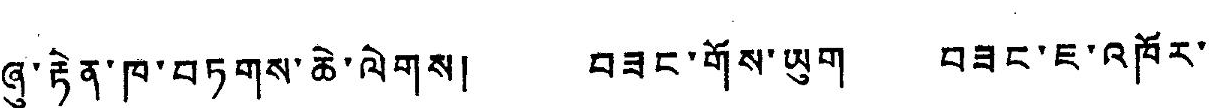ཞུ་རྟེན་ཁ་བཏགས་ཆེ་ལེགས། བཟང་གོས་ཡུག བཟང་ཇ་འཁོར་
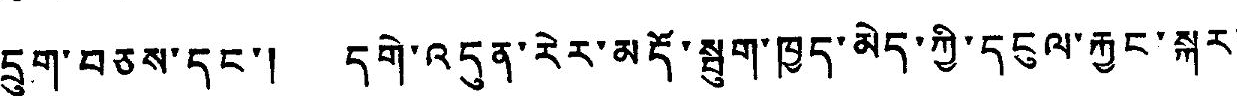དྲུག་བཅས་དང་། དགེ་འདུན་རེར་མདོ་སྦུག་ཁྱད་མེད་ཀྱི་དངུལ་རྐྱང་སྐར་
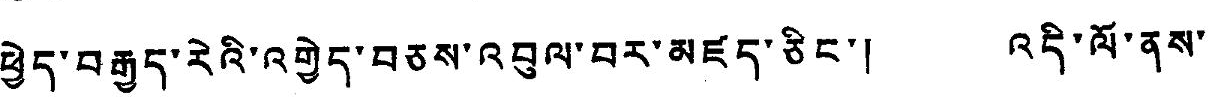ཕྱེད་བརྒྱད་རེའི་འགྱེད་བཅས་འབུལ་བར་མཛད་ཅིང་། འདི་ལོ་ནས་
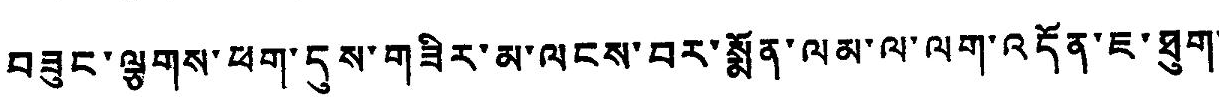བཟུང་ལྕགས་ཕག་དུས་གཟིར་མ་ལངས་བར་སྨོན་ལམ་ལ་ལག་འདོན་ཇ་ཐུག་
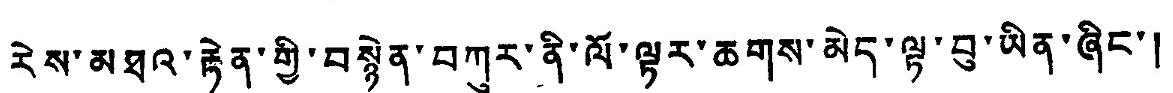རེས་མཐའ་རྟེན་གྱི་བསྙེན་བཀུར་ནི་ལོ་ལྟར་ཆགས་མེད་ལྟ་བུ་ཡིན་ཞིང་།
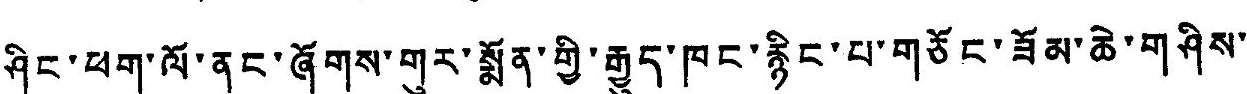ཤིང་ཕག་ལོ་ནང་ཞོགས་གུར་སྨོན་གྱི་རྒྱུད་ཁང་རྙིང་པ་གཅོང་ཟོམ་ཆེ་གཤིས་
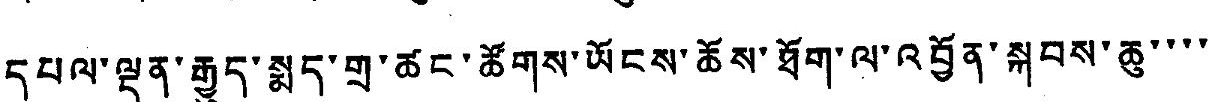དཔལ་ལྡན་རྒྱུད་སྨད་གྲ་ཚང་ཚོགས་ཡོངས་ཆོས་ཐོག་ལ་འབྱོན་སྐབས་ཆུ་་་་
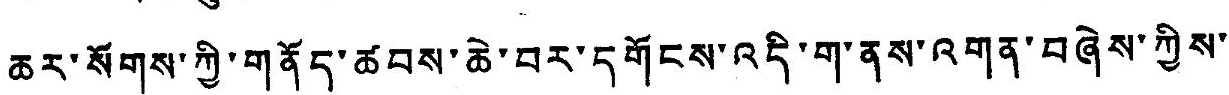ཆར་སོགས་ཀྱི་གནོད་ཚབས་ཆེ་བར་དགོངས་འདི་ག་ནས་འགན་བཞེས་ཀྱིས་
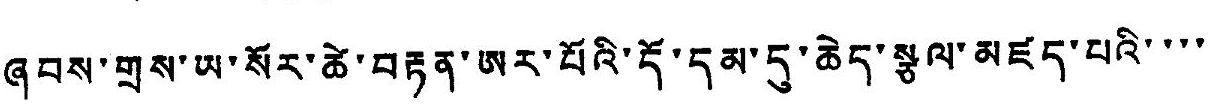ཞབས་གྲས་ཡ་སོར་ཚེ་བརྟན་ཨར་པོའི་དོ་དམ་དུ་ཆེད་སྩལ་མཛད་པའི་་་་
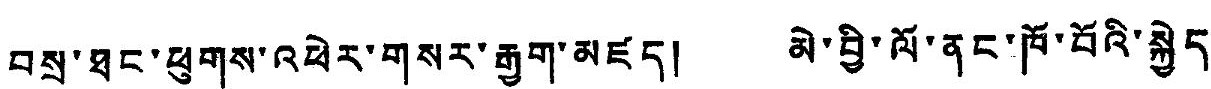བསྲ་ཐང་ཕུགས་འཕེར་གསར་རྒྱག་མཛད། མེ་བྱི་ལོ་ནང་ཁོ་བོའི་སྐྱེད་
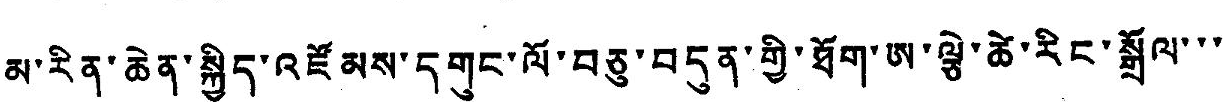མ་རིན་ཆེན་སྐྱིད་འཛོམས་དགུང་ལོ་བཅུ་བདུན་གྱི་ཐོག་ཨ་ལྕེ་ཚེ་རིང་སྒྲོལ་་་
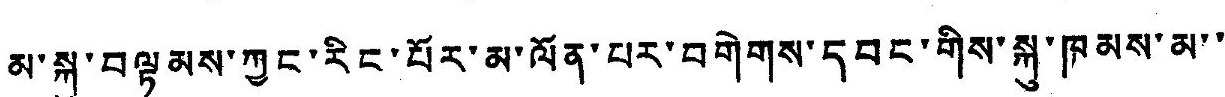མ་སྐུ་བལྟམས་ཀྱང་རིང་པོར་མ་ལོན་པར་བགེགས་དབང་གིས་སྐུ་ཁམས་མ་་
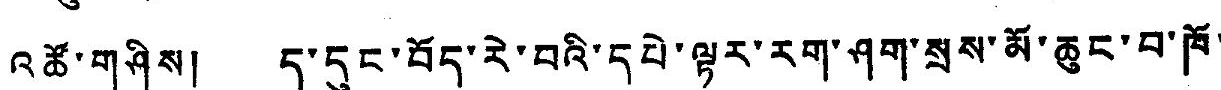འཚོ་གཤིས། ད་དུང་བོད་རེ་བའི་དཔེ་ལྟར་རག་ཤག་སྲས་མོ་ཆུང་བ་ཁོ་
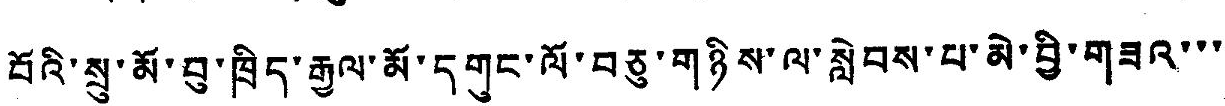བོའི་སྲུ་མོ་བུ་ཁྲིད་རྒྱལ་མོ་དགུང་ལོ་བཅུ་གཉིས་ལ་སླེབས་པ་མེ་བྱི་གཟའ་་་
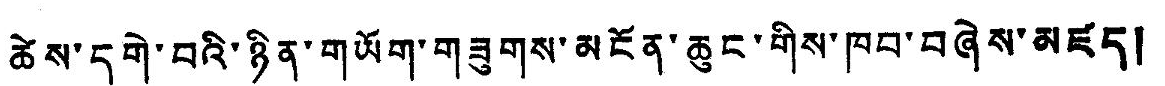ཚེས་དགེ་བའི་ཉིན་གཡོག་གཟུགས་མངོན་ཆུང་གིས་ཁམ་བཞེས་མཛད།
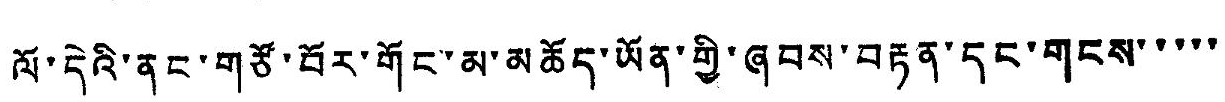ལོ་དེའི་ནང་གཙོ་བོར་གོང་མ་མཆོད་ཡོན་གྱི་ཞབས་བརྟན་དང་གངས་་་་་
